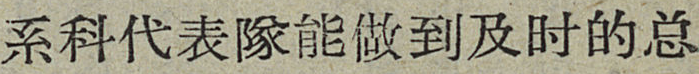系科代表隊能做到及时的总
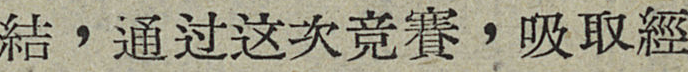結，通过这次竞賽，吸取經
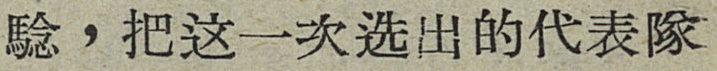騐，把这一次选出的代表隊
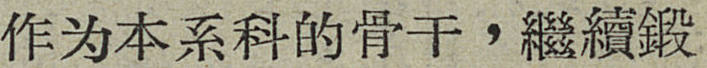作为本系科的骨干，繼續鍛
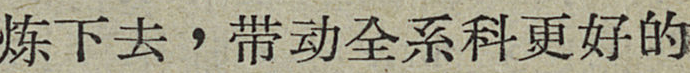炼下去，带动全系科更好的
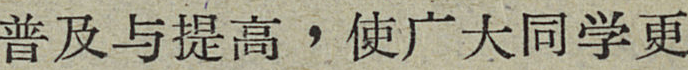普及与提高，使广大同学更
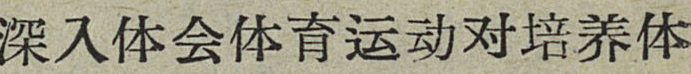深入体会体育运动对培养体
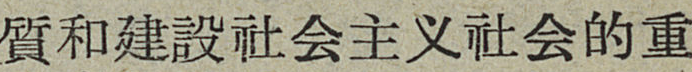質和建設社会主义社会的重
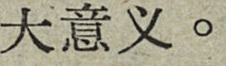大意义。
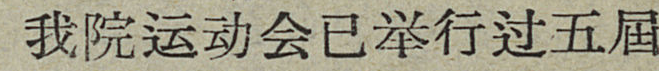我院运动会已举行过五屆
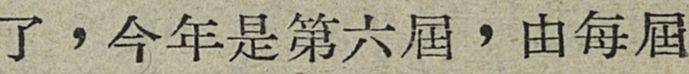了，今年是第六屆，由每屆
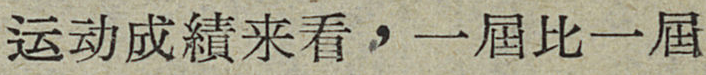运动成績来看，一屆比一屆
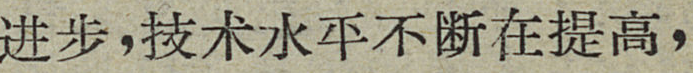进步，技术水平不断在提高，
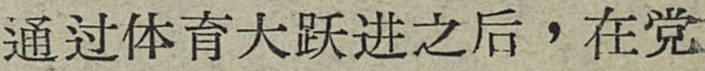通过体育大跃进之后，在党
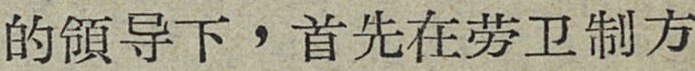的領导下，首先在劳卫制方
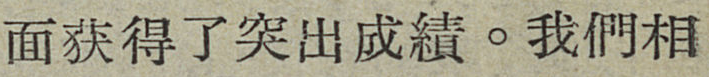面获得了突出成績。我們相
